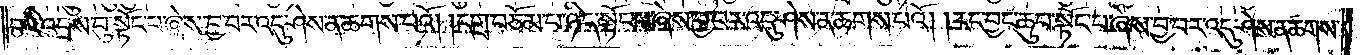བའི་འབྲས་བུ་སྟོང་པ་ཞེས་བྱ་བར་འདུ་ཤེས་ན་ཆགས་པའོ། །དགྲ་བཅོམ་པ་ཉིད་སྟོང་པ་ཞེས་བྱ་བར་འདུ་ཤེས་ན་ཆགས་པའོ། །རང་བྱང་ཆུབ་སྟོང་པ་ཞེས་བྱ་བར་འདུ་ཤེས་ན་ཆགས་
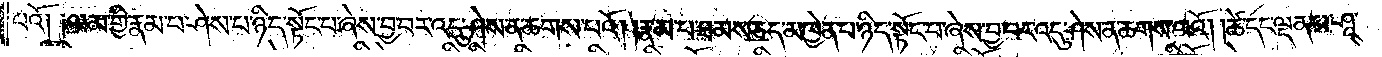པའོ༑ ༑ལམ་གྱི་རྣམ་པ་ཤེས་པ་ཉིད་སྟོང་པ་ཞེས་བྱ་བར་འདུ་ཤེས་ན་ཆགས་པའོ། །རྣམ་པ་ཐམས་ཅད་མཁྱེན་པ་ཉིད་སྟོང་པ་ཞེས་བྱ་བར་འདུ་ཤེས་ན་ཆགས་པའོ། །ཚེ་དང་ལྡན་པ་ཤཱ་
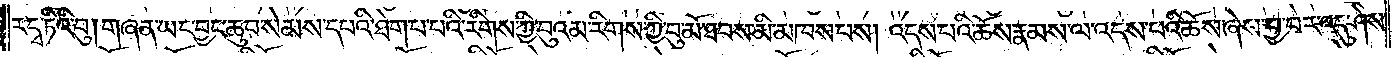རདྭ་ཏིའི་བུ། གཞན་ཡང་བྱང་ཆུབ་སེམས་དཔའ་ཐེག་པ་པའི་རིགས་ཀྱི་བུའམ་རིགས་ཀྱི་བུ་མོ་ཐབས་མི་མཁས་པས། འདས་པའི་ཆོས་རྣམས་ལ་འདས་པའི་ཆོས་ཞེས་བྱ་བར་འདུ་ཤེས་
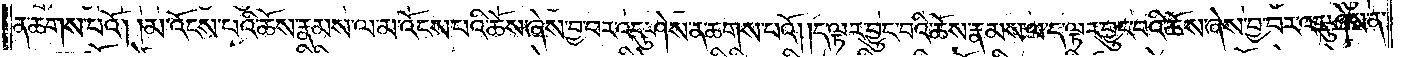ན་ཆགས་པའོ། །མ་འོངས་པའི་ཆོས་རྣམས་ལ་མ་འོངས་པའི་ཆོས་ཞེས་བྱ་བར་འདུ་ཤེས་ན་ཆགས་པའོ། །ད་ལྟར་བྱུང་བའི་ཆོས་རྣམས་ལ་ད་ལྟར་བྱུང་བའི་ཆོས་ཞེས་བྱ་བར་འདུ་ཤེས་ན་
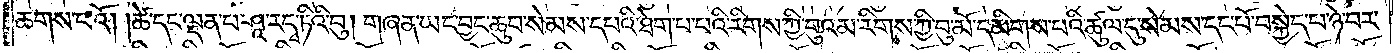ཆགས་པའོ། །ཚེ་དང་ལྡན་པ་ཤཱ་རདྭ་ཏིའི་བུ། གཞན་ཡང་བྱང་ཆུབ་སེམས་དཔའི་ཐེག་པ་པའི་རིགས་ཀྱི་བུའམ་རིགས་ཀྱི་བུ་མོ་དམིགས་པའི་ཚུལ་དུ་སེམས་དང་པོ་བསྐྱེད་པ་ཉེ་བར་
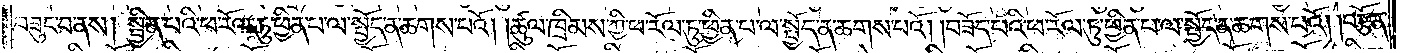བཟུང་བ་ནས། སྦྱིན་པའི་ཕ་རོལ་ཏུ་ཕྱིན་པ་ལ་སྤྱོད་ན་ཆགས་པའོ། །ཚུལ་ཁྲིམས་ཀྱི་ཕ་རོལ་ཏུ་ཕྱིན་པ་ལ་སྤྱོད་ན་ཆགས་པའོ། །བཟོད་པའི་ཕ་རོལ་ཏུ་ཕྱིན་པ་ལ་སྤྱོད་ན་ཆགས་པའོ། །བརྩོན་
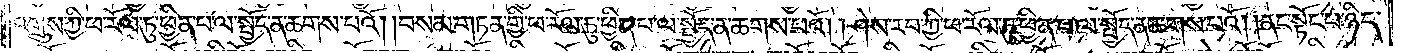འགྲུས་ཀྱི་ཕ་རོལ་ཏུ་ཕྱིན་པ་ལ་སྤྱོད་ན་ཆགས་པའོ། །བསམ་གཏན་གྱི་ཕ་རོལ་ཏུ་ཕྱིན་པ་ལ་སྤྱོད་ན་ཆགས་པའོ། །ཤེས་རབ་ཀྱི་ཕ་རོལ་ཏུ་ཕྱིན་པ་ལ་སྤྱོད་ན་ཆགས་པའོ། །ནང་སྟོང་པ་ཉིད་
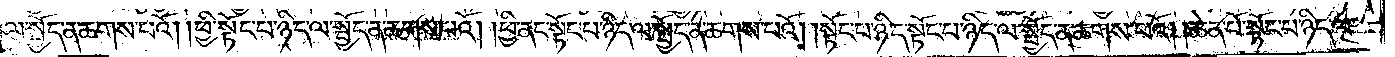ལ་སྤྱོད་ན་ཆགས་པའོ། །ཕྱི་སྟོང་པ་ཉིད་ལ་སྤྱོད་ན་ཆགས་པའོ། །ཕྱི་ནང་སྟོང་པ་ཉིད་ལ་སྤྱོད་ན་ཆགས་པའོ། །སྟོང་པ་ཉིད་སྟོང་པ་ཉིད་ལ་སྤྱོད་ན་ཆགས་པའོ། །ཆེན་པོ་སྟོང་པ་ཉིད་ལ་
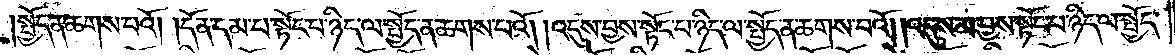སྤྱོད་ན་ཆགས་པའོ། །དོན་དམ་པ་སྟོང་པ་ཉིད་ལ་སྤྱོད་ན་ཆགས་པའོ། །འདུས་བྱས་སྟོང་པ་ཉིད་ལ་སྤྱོད་ན་ཆགས་པའོ། །འདུས་མ་བྱས་སྟོང་པ་ཉིད་ལ་སྤྱོད་
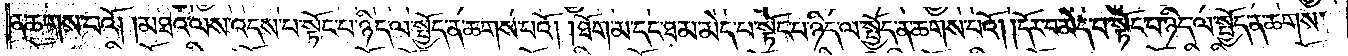ན་ཆགས་པའོ། །མཐའ་ལས་འདས་པ་སྟོང་པ་ཉིད་ལ་སྤྱོད་ན་ཆགས་པའོ། །ཐོག་མ་དང་ཐ་མ་མེད་པ་སྟོང་པ་ཉིད་ལ་སྤྱོད་ན་ཆགས་པའོ། །དོར་བ་མེད་པ་སྟོང་པ་ཉིད་ལ་སྤྱོད་ན་ཆགས་
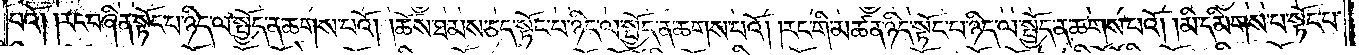པའོ། །རང་བཞིན་སྟོང་པ་ཉིད་ལ་སྤྱོད་ན་ཆགས་པའོ། །ཆོས་ཐམས་ཅད་སྟོང་པ་ཉིད་ལ་སྤྱོད་ན་ཆགས་པའོ། །རང་གི་མཚན་ཉིད་སྟོང་པ་ཉིད་ལ་སྤྱོད་ན་ཆགས་པའོ། །མི་དམིགས་པ་སྟོང་པ་
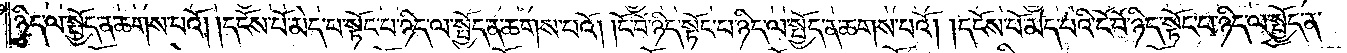ཉིད་ལ་སྤྱོད་ན་ཆགས་པའོ། །དངོས་པོ་མེད་པ་སྟོང་པ་ཉིད་ལ་སྤྱོད་ན་ཆགས་པའོ། །ངོ་བོ་ཉིད་སྟོང་པ་ཉིད་ལ་སྤྱོད་ན་ཆགས་པའོ། །དངོས་པོ་མེད་པའི་ངོ་བོ་ཉིད་སྟོང་པ་ཉིད་ལ་སྤྱོད་ན་
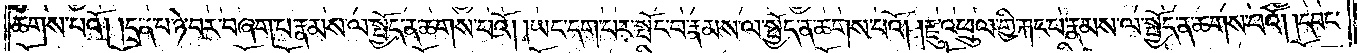ཆགས་པའོ། །དྲན་པ་ཉེ་བར་བཞག་པ་རྣམས་ལ་སྤྱོད་ན་ཆགས་པའོ། །ཡང་དག་པར་སྤོང་བ་རྣམས་ལ་སྤྱོད་ན་ཆགས་པའོ། །རྫུ་འཕྲུལ་གྱི་རྐང་པ་རྣམས་ལ་སྤྱོད་ན་ཆགས་པའོ། །དབང་
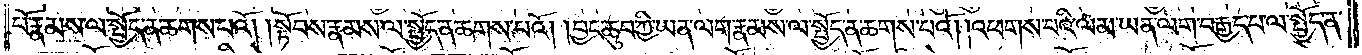པོ་རྣམས་ལ་སྤྱོད་ན་ཆགས་པའོ། །སྟོབས་རྣམས་ལ་སྤྱོད་ན་ཆགས་པའོ། །བྱང་ཆུབ་ཀྱི་ཡན་ལག་རྣམས་ལ་སྤྱོད་ན་ཆགས་པའོ། །འཕགས་པའི་ལམ་ཡན་ལག་བརྒྱད་པ་ལ་སྤྱོད་ན་
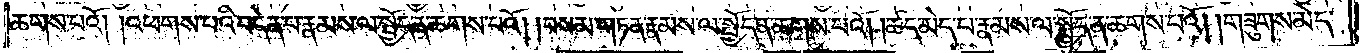ཆགས་པའོ། །འཕགས་པའི་བདེན་པ་རྣམས་ལ་སྤྱོད་ན་ཆགས་པའོ། །བསམ་གཏན་རྣམས་ལ་སྤྱོད་ན་ཆགས་པའོ། །ཚད་མེད་པ་རྣམས་ལ་སྤྱོད་ན་ཆགས་པའོ། །གཟུགས་མེད་
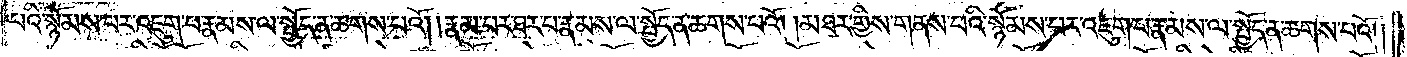པའི་སྙོམས་པར་འཇུག་པ་རྣམས་ལ་སྤྱོད་ན་ཆགས་པའོ། །རྣམ་པར་ཐར་པ་རྣམས་ལ་སྤྱོད་ན་ཆགས་པའོ། །མཐར་གྱིས་གནས་པའི་སྙོམས་པར་འཇུག་པ་རྣམས་ལ་སྤྱོད་ན་ཆགས་པའོ། །
